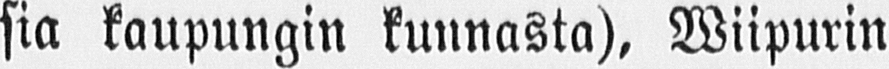siä kaupungin kunnasta), Wiipurin
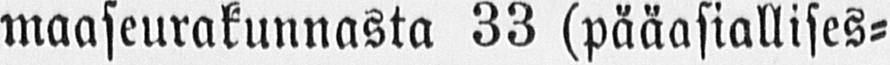maaseurakunnasta 33 (pääasiallises-
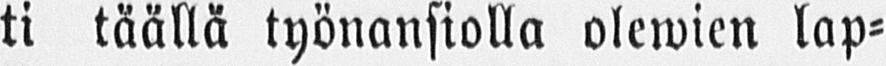ti täällä työnansiolla olewien lap-
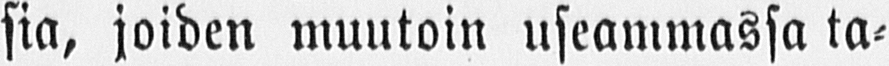sia, joiden muutoin useammassa ta-
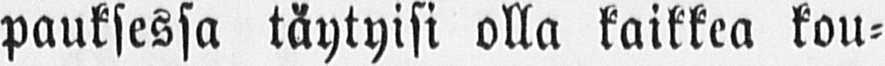pauksessa täytyisi olla kaikkea kou-
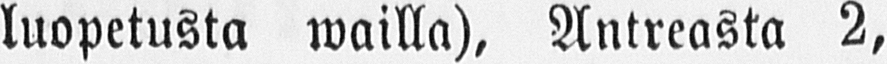luopetusta wailla), Autreasta 2,
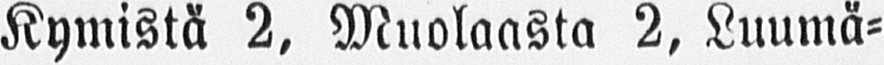Kymistä 2, Muolaasta 2, Luumä-
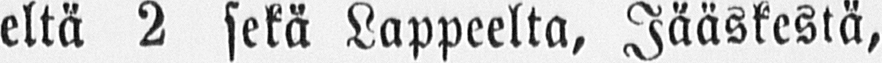eltä 2 sekä Lappeelta, Jääskestä,
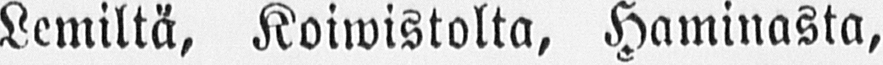Lemiltä, Koiwistolta, Haminasta,
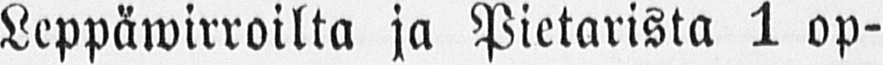Leppäwirroilta ja Pietarista 1 op-
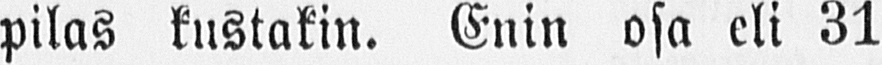pilas kustakin. Enin osa eli 31
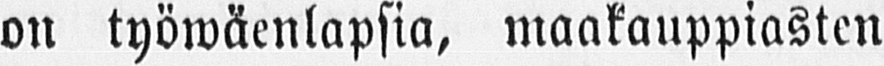on työwäenlapsia, maakauppiasten
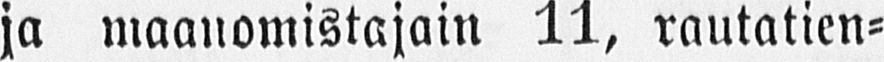ja maanomistajain 11, rautatien-
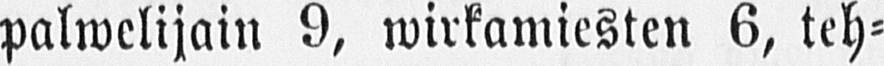palwelijain 9, wirkamiesten 6, teh-
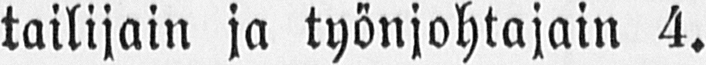tailijoin ja työnjohtajain 4.
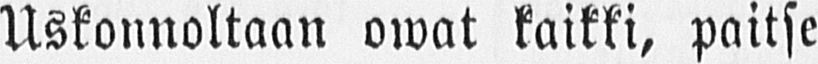Uskonnoltaan owat kaikki, paitse
